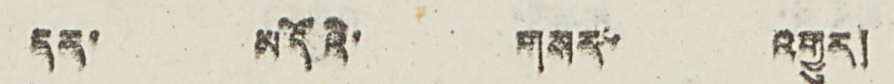དར་ མདོའི་ གསར་ འགྱུར།
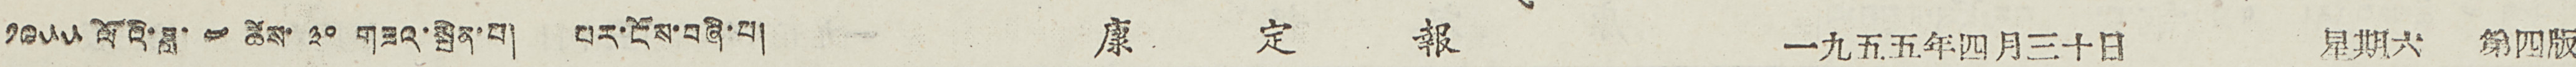༡༩༥༥ ལོའི་ཟླ་ ༤ ཚེས་ ༣༠ གཟའ་སྤེན་པ། པར་ངོས་བཞི་པ། 康 定 報 一九五五年四月三十日 星期六 第四版
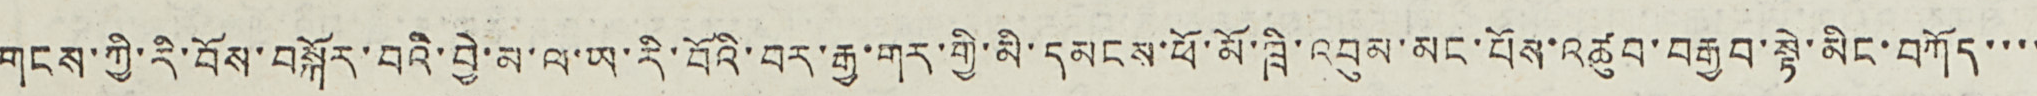གངས་ཀྱི་རི་བོས་བསྐོར་བའི་བྱེ་མ་ལ་ཡ་རི་བོའི་བར་རྒྱ་གར་གྱི་མི་དམངས་ཕོ་མོ་ཁྲི་འབུམ་མང་པོས་འཚུབ་བརྒྱབ་སྟེ་མིང་བཀོད་་་་
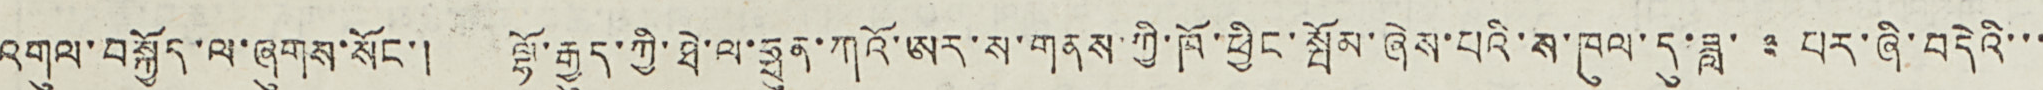འགུལ་བསྐྱོད་ལ་ཞུགས་སོང་། ལྷོ་རྒྱུད་ཀྱི་ཐེ་ལ་ཧྥུན་ཀའོ་ཨར་ས་གནས་ཀྱི་ཁོ་ཕྱིང་སྤོམ་ཞེས་པའི་ས་ཁུལ་དུ་ཟླ་ ༣ པར་ཞི་བདེའི་་་
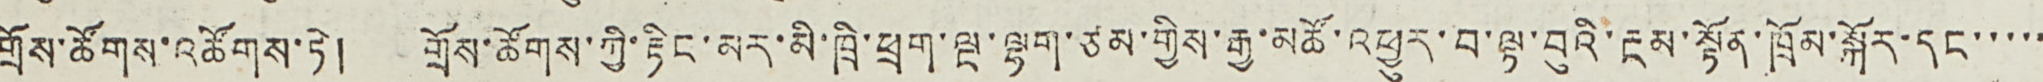གྲོས་ཚོགས་འཚོགས་ཏེ། གྲོས་ཚོགས་ཀྱི་རྟིང་མར་མི་ཁྲི་ཕྲག་ལྔ་ལྷག་ཙམ་གྱིས་རྒྱ་མཚོ་འཕྱུར་བ་ལྟ་བུའི་རྔམ་སྟོན་ཁྲོམ་སྐོར་དང་་་་་
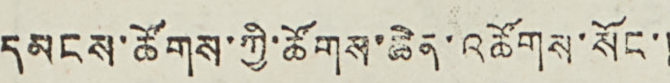དམངས་ཚོགས་ཀྱི་ཚོགས་ཆེན་འཚོགས་སོང་།
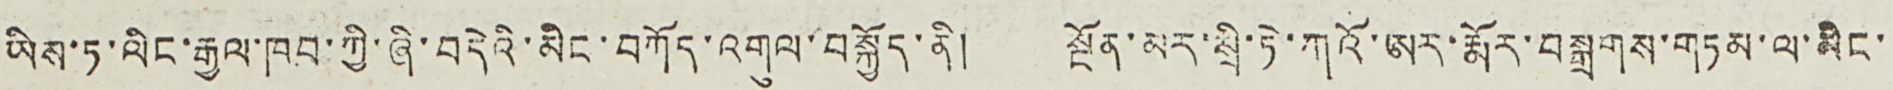ཡིས་ཏ་ལིང་རྒྱལ་ཁབ་ཀྱི་ཞི་བདེའི་མིང་བཀོད་འགུལ་བསྐྱོད་ནི། སྔོན་མར་སྲི་ཏེ་ཀའོ་ཨར་རྨོར་བསྒྲགས་གཏམ་ལ་མིང་
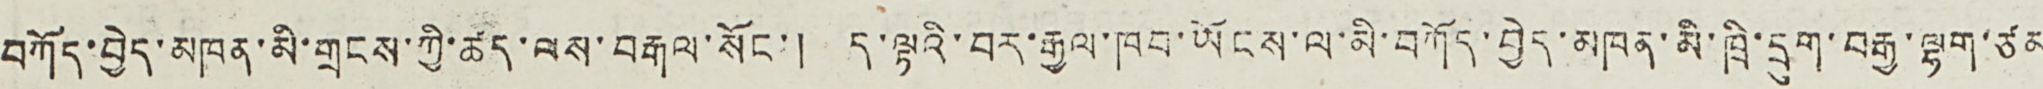བཀོད་བྱེད་མཁན་མི་གྲངས་ཀྱི་ཚད་ལས་བརྒལ་སོང་། ཏ་ལྟའི་བར་རྒྱལ་ཁབ་ཡོངས་ལ་མི་བཀོད་བྱེད་མཁན་མི་ཁྲི་དྲུག་བརྒྱ་ལྷག་ཙམ
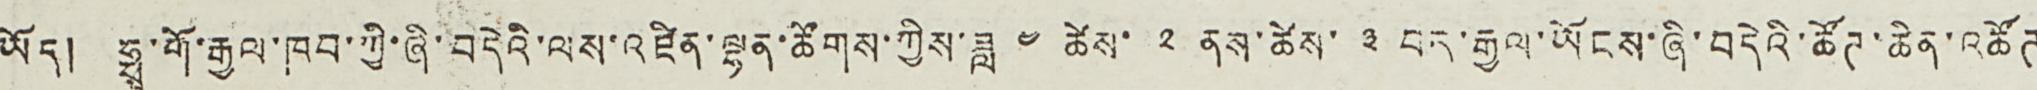ཡོད། ཧྥ་གོ་རྒྱལ་ཁབ་ཀྱི་ཞི་བདེའི་ལས་འཛིན་ལྷན་ཚོགས་ཀྱིས་ཟླ ༤ ཚེས་ ༢ ནས་ཚེས་ ༣ བར་རྒྱལ་ཡོངས་ཞི་བདེའི་ཚོཊ་ཆེན་འཚོཊ
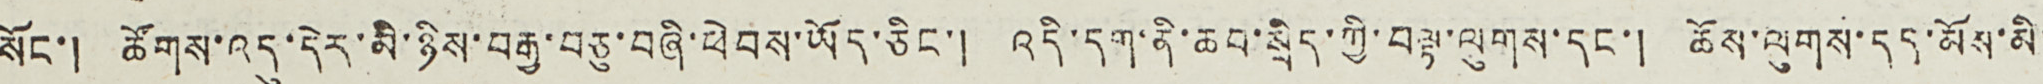སོང་། ཚོགས་འདུ་དེར་མི་ཉིས་བརྒྱ་བཅུ་བཞི་ཕེབས་ཡོད་ཅིང་། འདི་དག་ནི་ཆབ་སྲིད་ཀྱི་བལྟ་ལུགས་དང་། ཆོས་ལུགས་དད་མོས་མི་
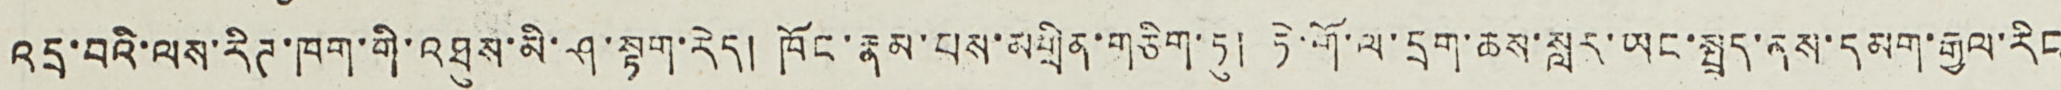འདྲ་བའི་ལས་རིཊ་ཁག་གི་འཐུས་མི་ཤ་སྟག་རེད། ཁོང་རྣམ་པས་མགྲིན་གཅིག་ཏུ། ཏེ་གོ་ལ་དྲག་ཆས་སླར་ཡང་སྤྲད་ནས་དམག་རྒྱལ་རིང
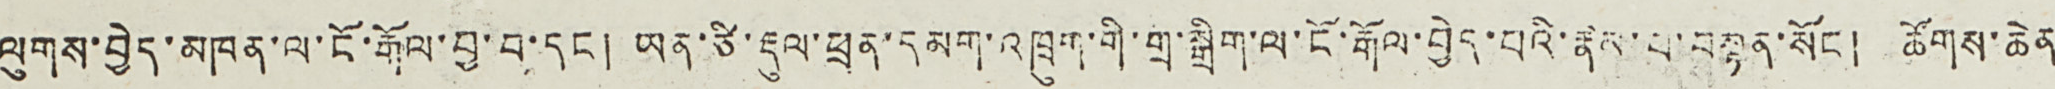ལུགས་བྱེད་མཁན་ལ་ངོ་རྒོལ་བྱ་བ་དང ། ཡན་ཙི་རྡུལ་ཕྲན་དམག་འཁྲུག་གི་གྲ་སྒྲིག་ལ་ངོ་རྒོལ་བྱེད་པའི་རྣམ་པ་བསྟན་སོང ། ཚོགས་ཆེན
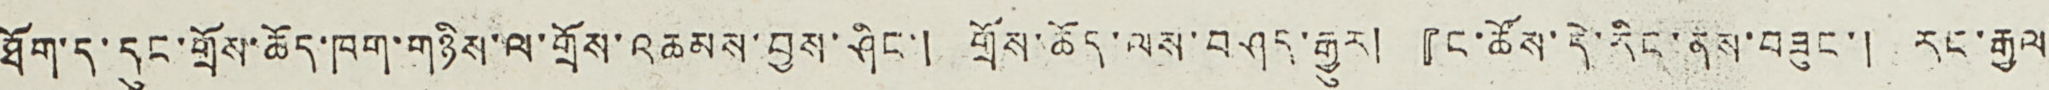ཐོག་ད་དུང་གྲོས་ཆོད་ཁག་གཉིས་ལ་གྲོས་འཆམས་བྱས་ཤིང་། གྲོས་ཆོད་ལས་བཤད་རྒྱུར། 『ང་ཚོས་དེ་རིང་ནས་བཟུང་། རང་རྒྱལ་
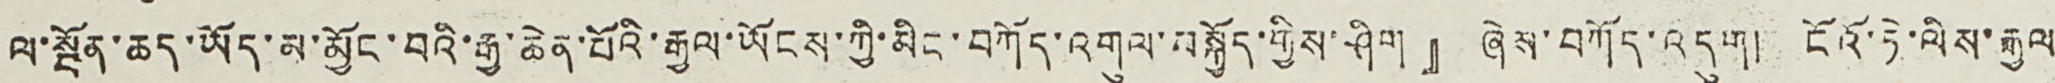ལ་སྔོན་ཆད་ཡོད་མ་མྱོང་བའི་རྒྱ་ཆེན་པོའི་རྒྱལ་ཡོངས་ཀྱི་མིང་བཀོད་འགུལ་བསྐྱོད་གྱིས་ཤིག』 ཞེས་བཀོད་འདུག། ངོའོ་ཏེ་ལིས་རྒྱལ་
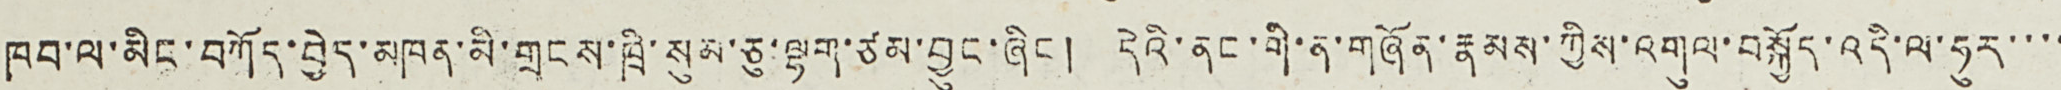ཁབ་ལ་མིང་བཀོད་བྱེད་མཁན་མི་གྲངས་ཁྲི་སུམ་ཅུ་ལྷག་ཙམ་བྱུང་ཞིང ། དེའི་ནང་གི་ན་གཞོན་རྣམས་ཀྱིས་འགུལ་བསྐྱོད་འདི་ལ་ཧུར་་་་
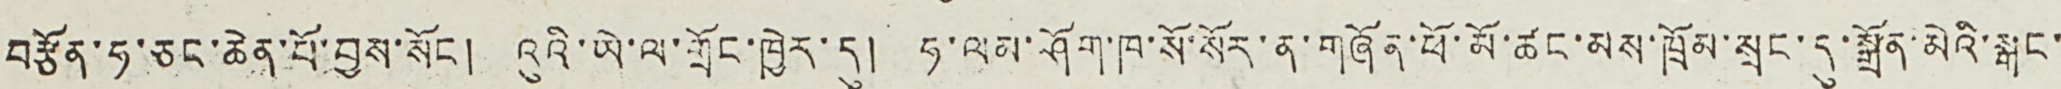བརྩོན་ཧ་ཅང་ཆེན་པོ་བྱས་སོང ། འུའི་ཡེ་ལ་གྲོང་ཁྱེར་དུ། ཧ་ལམ་ཤོག་ཁ་སོ་སོར་ན་གཞོན་ཕོ་མོ་ཚང་མས་ཁྲོམ་སྲང་དུ་སྒྲོན་མེའི་སྒང་
